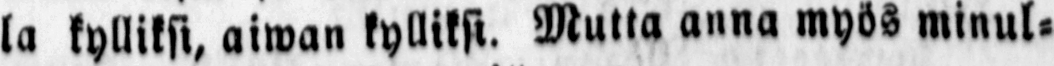la kylliksi, aiwän kylliksi. Mutta anna myös minul-
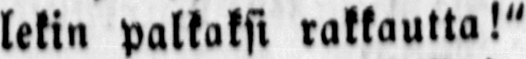lekin palkaksi rakkautta!"
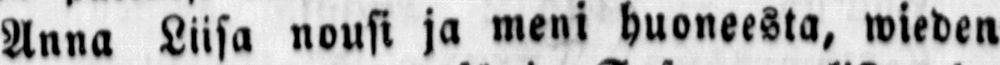Anna Liisa nousi ja meni huoneesta, wieden
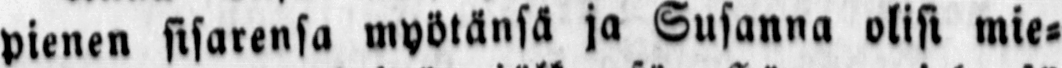pienen sisarensa myötänsä ja Susanna olisi mie-
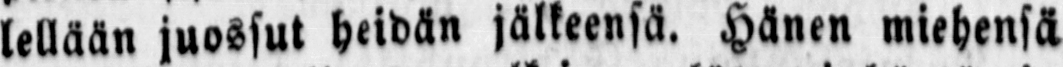lellään juossut heidän jälkeensä. Hänen miehensä
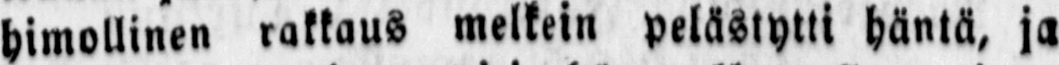himollinen rakkaus melkein pelästytti häntä, ja
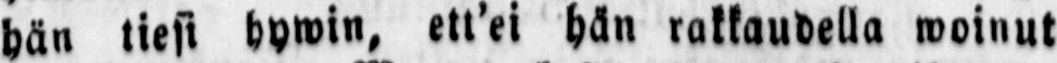hän tiesi hywin, ett'ei hän rakkaudella woinut
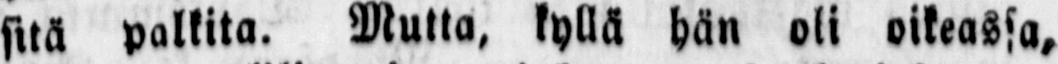sitä palkita. Mutta, kyllä hän oli oikeassa,
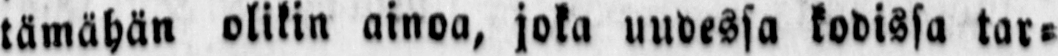tämähän olikin ainoa, joka uudessa kodissa tar-
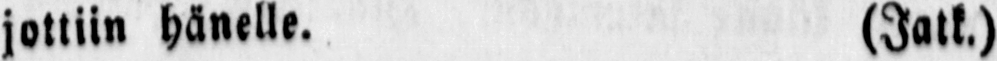jottiin hänelle. (Jatk.)
